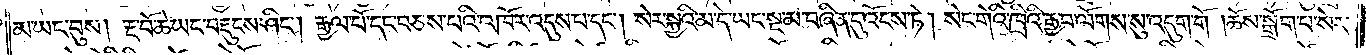མ་ཡང་བུས། རྔ་བོ་ཆེ་ཡང་བརྡུངས་ཤིང༌། རྒྱལ་པོ་དང་བཅས་པའི་འཁོར་འདུས་པ་དང༌། སེར་སྐྱའི་མ་དེ་ཡང་སྔ་མ་བཞིན་དུ་འོངས་ཏེ། སེང་གེའི་ཁྲིའི་རྒྱབ་ལོགས་སུ་འདུག་གོ །ཆོས་སྒྲོག་པ་སེར་
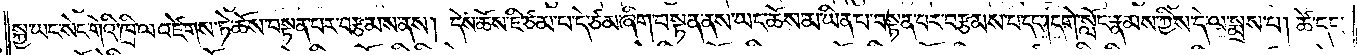སྐྱ་ཡང་སེང་གེའི་ཁྲི་ལ་འཛེགས་ཏེ་ཆོས་བསྟན་པར་བརྩམས་ནས། དེས་ཆོས་ཇི་ཙམ་པ་དེ་ཙམ་ཞིག་བསྟན་ནས་ཡང་ཆོས་མ་ཡིན་པ་བསྟན་པར་བརྩམས་པ་དང༌། དགེ་སློང་རྣམས་ཀྱིས་དེ་ལ་སྨྲས་པ། ཚེ་དང་
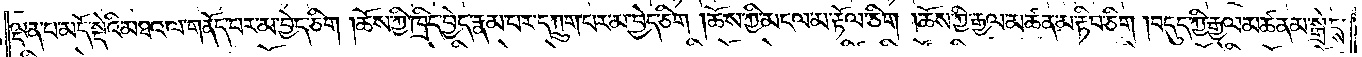ལྡན་པ་མདོ་སྡེའི་མཐའ་ལ་གནོད་པར་མ་བྱེད་ཅིག །ཆོས་ཀྱི་ཁྲིད་བྱེད་རྣམ་པར་དཀྲུག་པར་མ་བྱེད་ཅིག །ཆོས་ཀྱི་མངལ་མ་རྟོལ་ཅིག །ཆོས་ཀྱི་རྒྱལ་མཚན་མ་རྟིབ་ཅིག །བདུད་ཀྱི་རྒྱལ་མཚན་མ་སྒྲེངས་
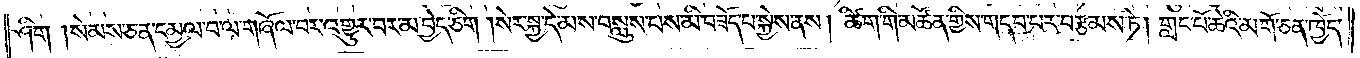ཤིག །སེམས་ཅན་དམྱལ་བ་ལ་གཞོལ་བར་འགྱུར་བར་མ་བྱེད་ཅིག །སེར་སྐྱ་དེ་མས་བསླུས་པས་མི་བཟོད་པ་སྐྱེས་ནས། ཚིག་གི་མཚོན་གྱིས་གདབ་པར་བརྩམས་ཏེ། གླང་པོ་ཆེའི་མགོ་ཅན་ཁྱོད་
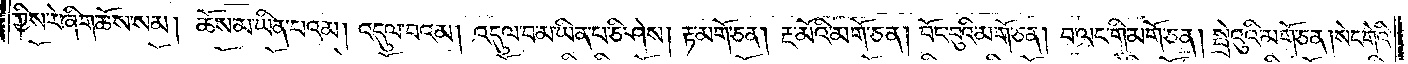ཀྱིས་རེ་ཞིག་ཆོས་སམ། ཆོས་མ་ཡིན་པའམ། འདུལ་བའམ། འདུལ་བ་མ་ཡིན་པ་ཅི་ཤེས། རྟ་མགོ་ཅན། རྔ་མོའི་མགོ་ཅན། བོང་བུའི་མགོ་ཅན། བ་ལང་གི་མགོ་ཅན། སྤྲེའུའི་མགོ་ཅན། སེང་གེའི་
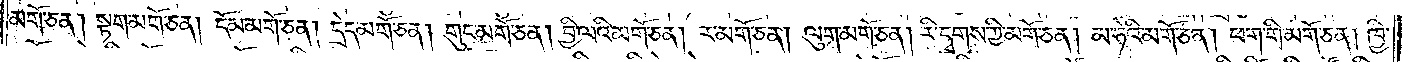མགོ་ཅན། སྟག་མགོ་ཅན། དོམ་མགོ་ཅན། དྲེད་མགོ་ཅན། གུང་མགོ་ཅན། བྱི་ལའི་མགོ་ཅན། ར་མགོ་ཅན། ལུག་མགོ་ཅན། རི་དྭགས་ཀྱི་མགོ་ཅན། མ་ཧེའི་མགོ་ཅན། ཕག་གི་མགོ་ཅན། ཁྱི་
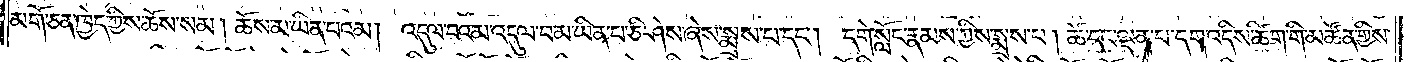མགོ་ཅན་ཁྱེད་ཀྱིས་ཆོས་སམ། ཆོས་མ་ཡིན་པའམ། འདུལ་བའམ་འདུལ་བ་མ་ཡིན་པ་ཅི་ཤེས་ཞེས་སྨྲས་པ་དང༌། དགེ་སློང་རྣམས་ཀྱིས་སྨྲས་པ། ཚེ་དང་ལྡན་པ་དག་འདིས་ཚིག་གི་མཚོན་གྱིས་
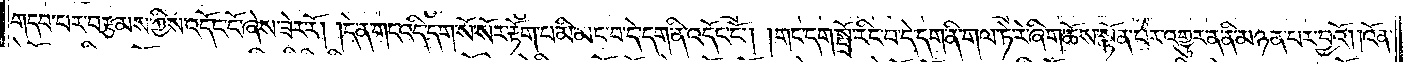གདབ་པར་བརྩམས་ཀྱིས་འདོང་ངོ་ཞེས་ཟེར་རོ། །དེ་ན་གང་འདི་དག་སོ་སོར་རྟོག་པ་མི་མང་བ་དེ་དག་ནི་འདོང་ངོ༌། །གང་དག་སྤྲོ་རིང་བ་དེ་དག་ནི་གལ་ཏེ་རེ་ཞིག་ཆོས་སྟོན་པར་འགྱུར་ན་ནི་མཉན་པར་བྱའོ། །འོན་
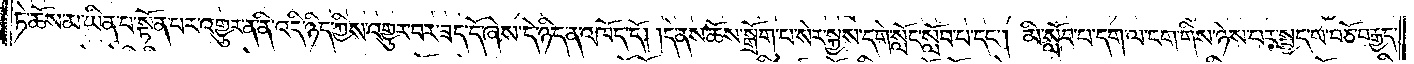ཏེ་ཆོས་མ་ཡིན་པ་སྟོན་པར་འགྱུར་ན་ནི་འདི་ཉིད་ཀྱིས་འགྱུར་བར་ཟད་དོ་ཞེས་དེ་ཉིད་ན་འཁོད་དོ། །དེ་ནས་ཆོས་སྒྲོག་པ་སེར་སྐྱས་དགེ་སློང་སློབ་པ་དང༌། མི་སློབ་པ་དག་ལ་ངག་གིས་ཉེས་པར་སྤྱད་ས་བཅོ་བརྒྱད་
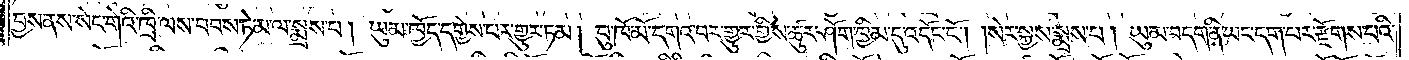བྱས་ནས་སེང་གེའི་ཁྲི་ལས་བབས་ཏེ་མ་ལ་སྨྲས་པ། ཡུམ་ཁྱོད་དགྱེས་པར་གྱུར་ཏམ། བུ་ཁོ་མོ་དགའ་བར་གྱུར་གྱིས་ཚུར་ཤོག་ཁྱིམ་དུ་འདོང་ངོ༌། །སེར་སྐྱས་སྨྲས་པ། ཡུམ་བདག་ནི་ཡང་དག་པར་རྫོགས་པའི་
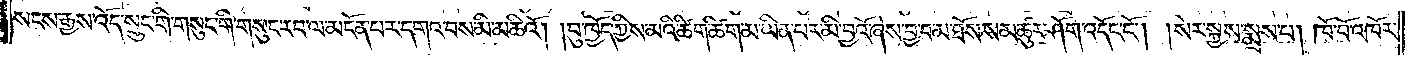སངས་རྒྱས་འོད་སྲུང་གི་གསུང་གི་གསུང་རབ་ལ་མངོན་པར་དགའ་བས་མི་མཆིའོ། །བུ་ཁྱོད་ཀྱིས་མའི་ཚིག་ཚིག་མ་ཡིན་པར་མི་བྱའོ་ཞེས་བྱ་བ་མ་ཐོས་སམ་ཚུར་ཤོག་འདོང་ངོ༌། །སེར་སྐྱས་སྨྲས་པ། ཁོ་བོ་འཁོར་
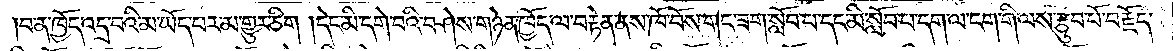བ་ན་ཁྱོད་འདྲ་བའི་མ་ཡོད་པར་མ་གྱུར་ཅིག །དེང་མི་དགེ་བའི་བཤེས་གཉེན་ཁྱོད་ལ་བརྟེན་ནས་ཁོ་བོས་གང་ཟག་སློབ་པ་དང་མི་སློབ་པ་དག་ལ་ངག་གི་ལས་རྩུབ་པོ་བརྗོད་
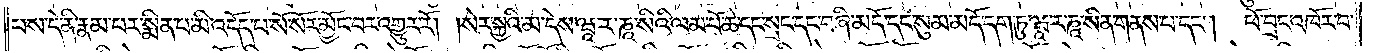པས་དེ་ནི་རྣམ་པར་སྨིན་པ་མི་འདོད་པ་སོ་སོར་མྱོང་བར་འགྱུར་རོ། །སེར་སྐྱའི་མ་དེས་ཝཱ་ར་ཎཱ་སིའི་ལམ་པོ་ཆེ་དང་སྲང་དང་བཞི་མདོ་དང་སུམ་མདོ་དག་ཏུ་ཝཱ་ར་ཎཱ་སིན་གནས་པ་དང༌། ཕོ་བྲང་འཁོར་བ་
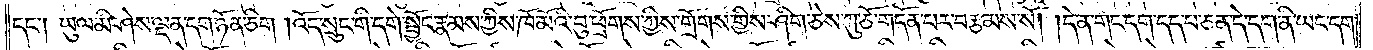དང༌། ཡུལ་མི་ཤེས་ལྡན་དག་ཉོན་ཅིག །འོད་སྲུང་གི་དགེ་སྦྱོང་རྣམས་ཀྱིས་ཁོ་མོའི་བུ་ཕྲོགས་ཀྱིས་གྲོགས་གྱིས་ཤིག་ཅེས་ཀུ་ཅོ་གདོན་པར་བརྩམས་སོ། །དེ་ན་གང་དག་དད་པ་ཅན་དེ་དག་ནི་ཡང་དག་
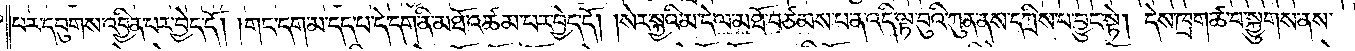པར་དབུགས་འབྱིན་པར་བྱེད་དོ། །གང་དག་མ་དད་པ་དེ་དག་ནི་མཐོ་འཚམ་པར་བྱེད་དོ། །སེར་སྐྱའི་མ་དེ་ལ་མཐོ་བཙམས་པ་ན་འདི་ལྟ་བུའི་ཀུན་ནས་དཀྲིས་པ་བྱུང་སྟེ། དེས་ཁྲག་ཚ་བ་སྐྱུགས་ནས་
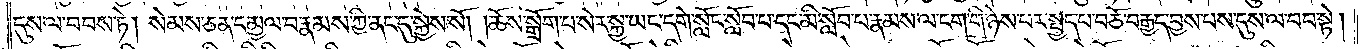དུས་ལ་བབས་ཏེ། སེམས་ཅན་དམྱལ་བ་རྣམས་ཀྱི་ནང་དུ་སྐྱེས་སོ། །ཆོས་སྒྲོག་པ་སེར་སྐྱ་ཡང་དགེ་སློང་སློབ་པ་དང་མི་སློབ་པ་རྣམས་ལ་ངག་གི་ཉེས་པར་སྤྱད་པ་བཅོ་བརྒྱད་བྱས་པས་དུས་ལ་བབ་སྟེ།
